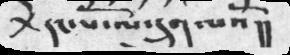+ དང་པོ་ལ་དྲུག་པའོ།།
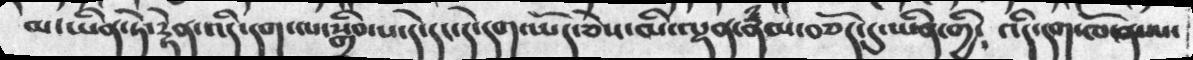མ་ཡིན་ཏེ་རྟེན་འདི་དག་ལ་སྒྲིབ་པ་དེ་དང་དེ་དག་ཡོད་ཅེས་མི་ལྡན་རྣཾམ་བཅོད་དུ་ཡིན་གྱི༴ འདི་དག་ཁོ་ནས་
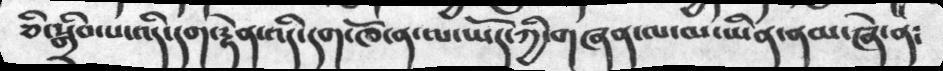ཅི་སྒྲིབ་པ་འདི་དག་རྟེན་འདི་དག་ཁོ་ན་ལ་ཡོད་ཀྱི་གཞན་ལ་མ་ཡིན་ནམ་ཞེ་ན༴
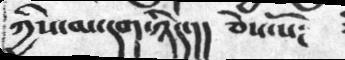ཀྱིས་མ་དག་ཉིད་།། ཅེས་སོ༴
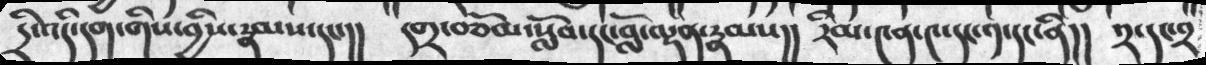དྲི་འདི་དག་གིས་བྱིས་རྣམས་དང་།། དགྲ་བཅོམ་སློབ་དང་བློ་ལྡན་རྣམས།།  རིམ་༤ན་༤་དང་༡་དང་ནི།།  ༢་དང་༢
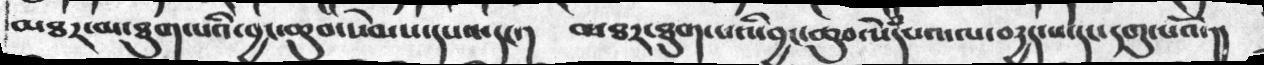མཐར་མ་ཐུག་པའི་བྱང་ཆུབ་སེམས་དཔའ་དང་། མཐར་ཐུག་པའི་བྱང་ཆུབ་སེཾདཔའ་ལ་བརྱད་པ་དང་དགུ་པའོ་།།
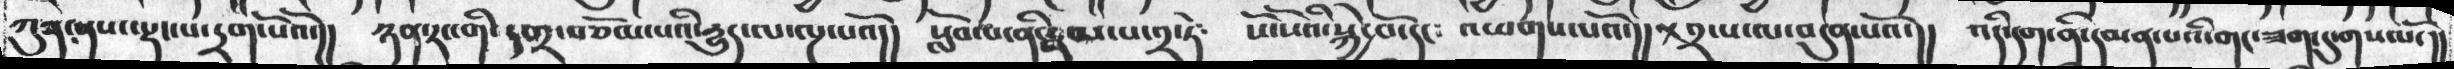ཀུན་ནས་ལྡང་པ་དྲག་པོའོ་།།  ཉན་རང་གི་དགྲ་བཅོམ་པའི་དྱུད་ལ་ལྔ་པའོ།།  སློབ་པ་ནི་རྣམ་པ་༢་ཏེ༴  སོ་སོའི་སྐྱེ་བོ་དང༴ འཕགས་པའོ་།།+༢་པ་ལ་བདུན་པའོ་།། འདི་དག་ནི་དམན་པའི་གང་ཟག་དུ་གསལོ་།།
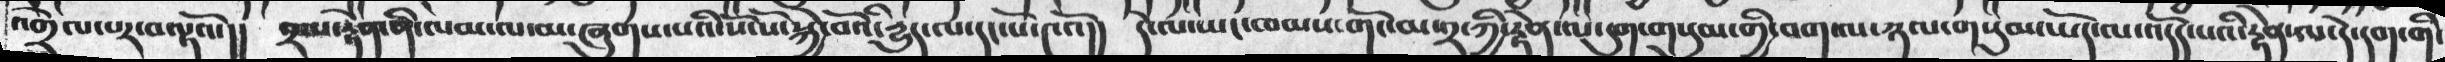འགྲེལ་པར་བལྟའོ་།། བྲལ་རྟེན་ནི་ལམ་ལ་མ་ཞུགས་པའི་སོ་སོ་སྐྱེ་བོའི་རྱུད་ལ་དང་པོ་༤འོ།། དེ་ལ་ཡང་ཁམས་གོང་མ་༢་ཀྱི་རྟེན་ལ་དུག་གསུམ་གྱི་བག་ལ་ཉལ་གསུམ་ཡོད་ལ་འདོད་པའི་རྟེན་ལ་དེ་དག་གི་
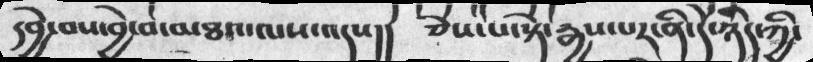དབྱེ་བས་བྱེ་བ་མཐའ་ལས་འདས།།  ཅེས་པ་སྟེ་རྒྱས་པར་ནི་དེ་ཉིད་ཀྱི་
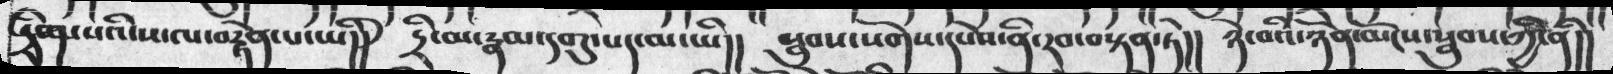དྲིག་པའི་ས་ལ་བརྟེན་པ་ཡི།། དྲི་མ་རྣམ་དགུ་པད་མ་ཡི།། སྦུབས་སོགས་དཔེས་ནི་རབ་བསྟན་ཏེ།། ཉེ་བའི་ཉོན་མོངས་སྦུབས་ཀྱི་ནི།།
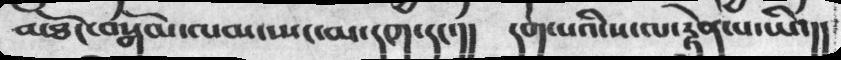མཐོང་བསྒོམ་ལམ་སྤང་མ་དག་དང་།།  དག་པའི་ས་ལ་རྟེན་པ་ཡི་།།
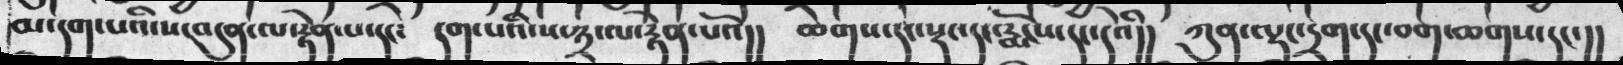མ་དག་པའི་ས་བདུན་ལ་རྟེན་པ་དང༴  དག་པའི་ས་༣་ལ་རྟེན་པའོ།།  ཆགས་དང་སྡང་དང་རྨོངས་དང་དེའི།།  ཀུན་ལྡང་དྲག་དང་བག་ཆགས་དང་།།
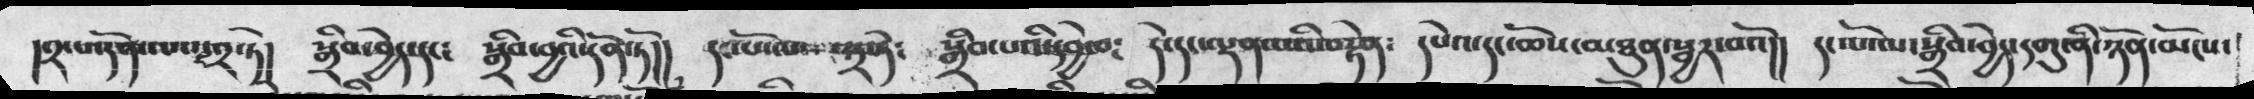།༢་པ་དོན་ལའང་༢་ཏེ།  སྒྲིབ་བྱེད་དང༴  སྒྲིབ་བྱའི་དོན་ཏོ།།   དང་པོ་  ༣་ཏེ༴ སྒྲིབ་པའི་དབྱེ་བ༴  དེ་དང་ལྡན་པའི་བརྟེན༴  དཔེའ་དང་ཆོས་མཐུན་སྦྱར་བའོ།།  དང་པོ་ལ་སྒྲིབ་བྱེད་དགུ་ན་ཉོན་མོངས་
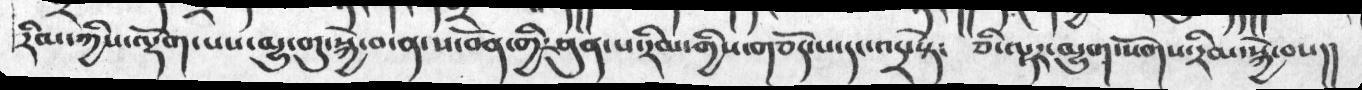རིམ་ཀྱིས་ལྡོག་པས་མྱུ་གུ་སྐྱེ་བ་ན་ས་བོན་གྱི་ཤུན་པ་རིམ་གྱིས་གཅོད་པ་དང་འདྲ་སྟེ༴ ཅི་ལྟར་མྱུག་སོགས་རིམ་སྐྱེ་བས།།
